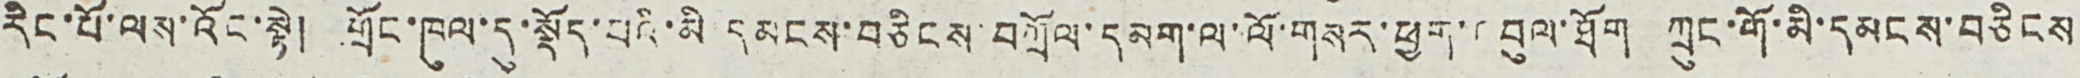རིང་པོ་ལས་འོང་སྟེ། གྲོང་ཁུལ་དུ་སྡོད་པའི་མི དམངས་བཅིངས་བཀྲོལ་དམག་ལ་ལོ་གསར་ཕྱག་འབུལ་ཐོག ཀྲུང་གོ་མི་དམངས་བཅིངས
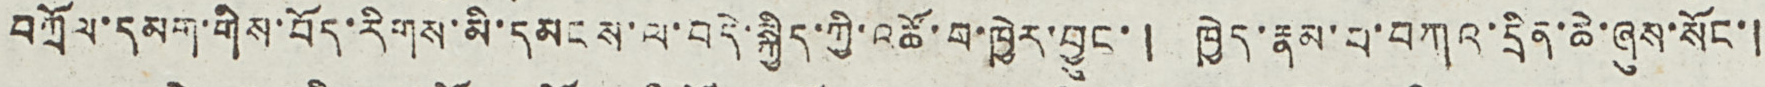བཀྲོལ་དམག་གིས་བོད་རིགས་མི་དམངས་ལ་བདེ་སྐྱིད་ཀྱི་འཚོ་བ་ཁྱེར་བྱུང་། ཁྱེད་རྣམ་པ་བཀའ་དྲིན་ཆེ་ཞུས་སོང་།
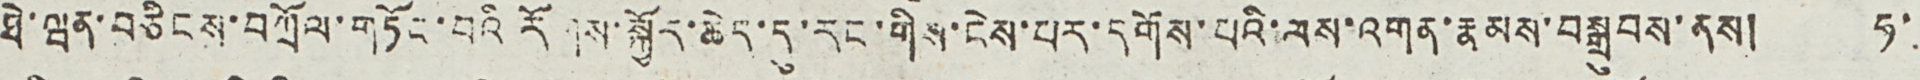ཐེ་ཝན་བཅིངས་བཀྲོལ་གཏོང་བའི རོགས་སྐྱོད་ཆེད་དུ་རང་གིས་ངེས་པར་དགོས་པའི་ལས་འགན་རྣམས་བསྒྲུབས་ནས། ཧ་
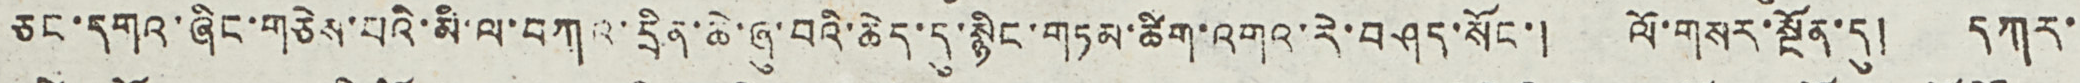ཅང་དགའ་ཞིང་གཅེས་པའི་མི་ལ་བཀའ་དྲིན་ཆེ་ཞུ་བའི་ཆེད་དུ་སྙིང་གཏམ་ཚིག་འགའ་རེ་བཤད་སོང་། ལོ་གསར་སྔོན་དུ། དཀར་
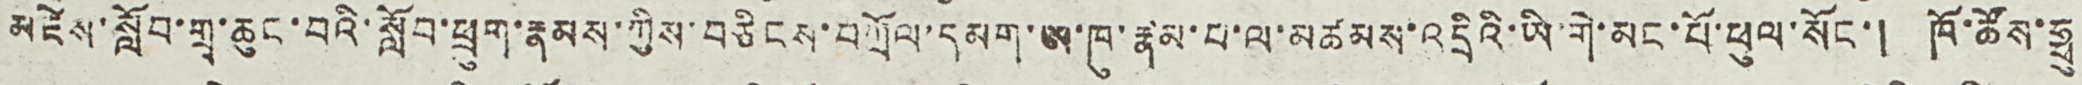མཛེས་སློབ་གྲྭ་ཆུང་བའི་སློབ་ཕྲུག་རྣམས་ཀྱིས་བཅིངས་བཀྲོལ་དམག་ཨ་ཁུ་རྣམ་པ་ལ་མཚམས་འདིའི་ཡི་གེ་མང་པོ་ཕུལ་སོང་། ཁོ་ཚོས་ཧྥུ
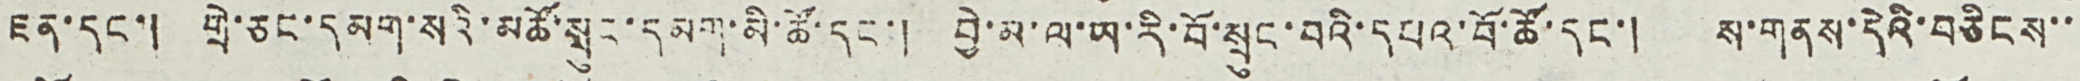ཇན་དང་། གྲེ་ཅང་དམག་སའི་མཚོ་སྲུང་དམག་མི་ཚོ་དང་། བྱེ་མ་ལ་ཡ་རི་བོ་སྲུང་བའི་དཔའ་བོ་ཚོ་དང་། ས་གནས་དེའི་བཅིངས་་
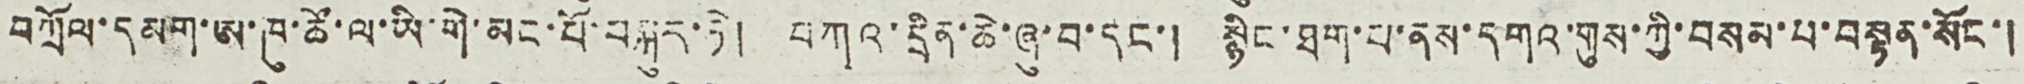བཀྲོལ་དམག་ཨ་ཁུ་ཚོ་ལ་ཡི་གེ་མང་པོ་བསྐུར་ཏེ། བཀའ་དྲིན་ཆེ་ཞུ་བ་དང་། སྙིང་ཐག་པ་ནས་དགའ་གུས་ཀྱི་བསམ་པ་བསྟན་སོང་།
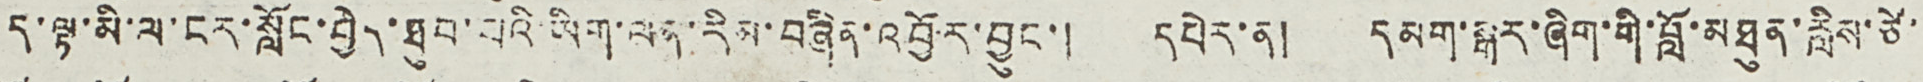ད་ལྟ་མི་ལ་ངར་སློང་བྱེད་ཐུབ་པའི་ཡིག་ལན་རིམ་བཞིན་འབྱོར་བྱུང་། དཔེར་ན། དམག་སྒར་ཞིག་གི་བློ་མཐུན་རླིས་ཙེ་
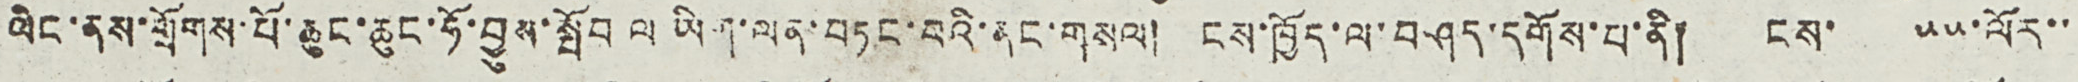ལིང་ནས་གྲོགས་པོ་ཆུང་ཆུང་ཧོ་བྱུས་སྤོབ ལ ཡིག་ལན་བཏང་བའི་ནང་གསལ། ངས་ཁྱོད་ལ་བཤད་དགོས་པ་ནི། ངས་ ༥༥་ལོར་་
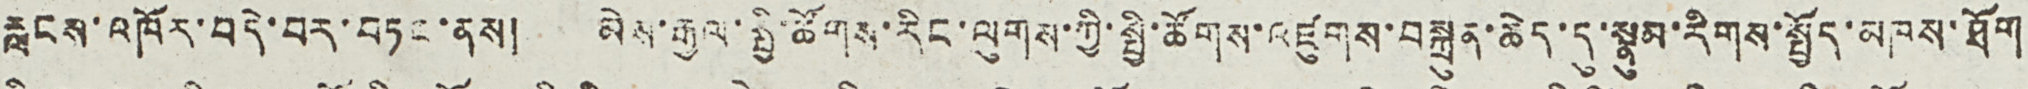རླངས་འཁོར་བདེ་བར་བཏང་ནས། མེས་རྒྱལ་སྤྱི་ཚོགས་རིང་ལུགས་ཀྱི་སྤྱི་ཚོགས་འཛུགས་བསྐྲུན་ཆེད་དུ་སྣུམ་རིགས་སྤྱོད་མཁས་ཐོག
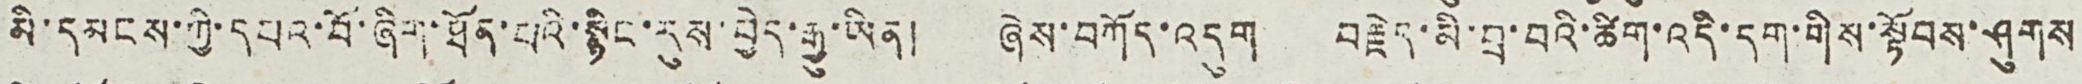མི་དམངས་ཀྱི་དཔའ་བོ་ཞིག་ཐོན་པའི་སྙིང་རུས་བྱེད་རྒྱུ་ཡིན། ཞེས་བཀོད་འདུག བརྗེད་མི་བྲ་བའི་ཚིག་འདི་དག་གིས་སྟོབས་ཤུགས
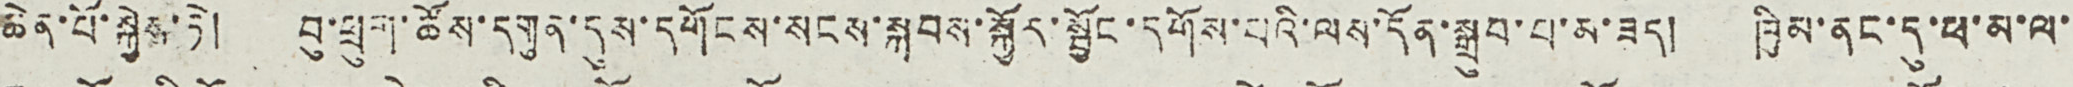ཆེན་པོ་སྐྱེས་ཏེ། བུ་ཕྲུག་ཚོས་དགུན་དུས་དགོངས་སངས་སྐབས་སྐྱོར་སྦྱོང་དགོས་པའི་ལས་དོན་སྒྲུབ་པ་མ་ཟད། ཁྱིམ་ནང་དུ་ཕ་མ་ལ་
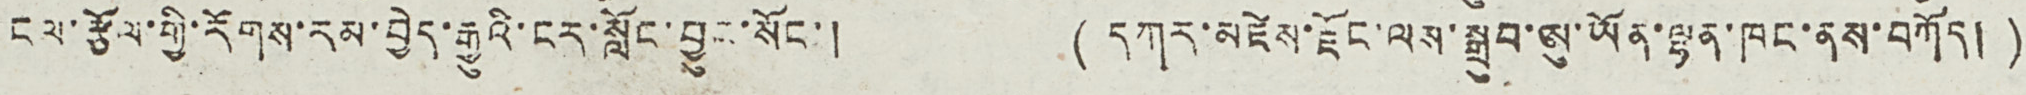ངལ་རྩོལ་གྱི་རོགས་རམ་བྱེད་རྒྱུའི་ངར་སློང་བྱུང་སོང་། (དཀར་མཛེས་རྫོང་ལས་སྒྲུབ་ཨུ་ཡོན་ལྷན་ཁང་ནས་བཀོད། )
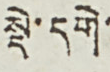སྡེ་དགེ་
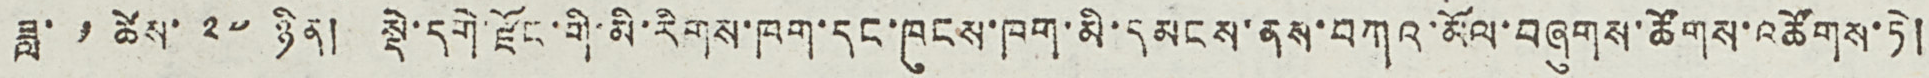ཟླ་ ༡ ཚེས་ ༢༧ ཉིན། སྡེ་དགེ་རྫོང་གི་མི་རིགས་ཁག་དང་ཁུངས་ཁག་མི་དམངས་ནས་བཀའ་མོལ་བཞུགས་ཚོགས་འཚོགས་ཏེ།
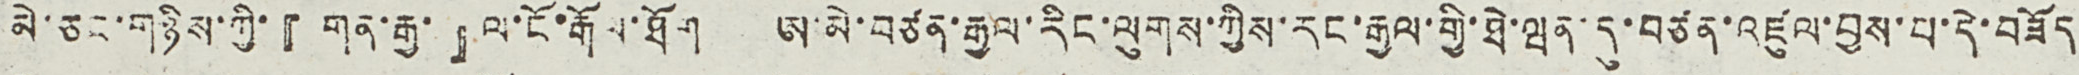མེ་ཅང་གཉིས་ཀྱི་『གན་རྒྱ་』ལ་ངོ་རྒོལ་ཐོག ཨ་མེ་བཙན་རྒྱལ་རིང་ལུགས་ཀྱི་རང་རྒྱལ་གྱི་ཐེ་ཝན་དུ་བཙན་འཛུལ་བྱས་པ་དེ་བཟོད
